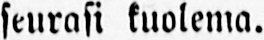seurasi kuolema.
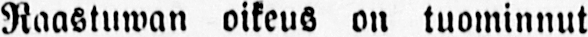Raastuwan oikeus on tuominnut
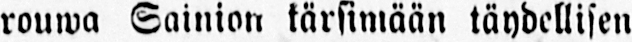rouwa Sainion kärsimään täydellisen
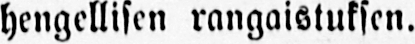hengellisen rangaistuksen.
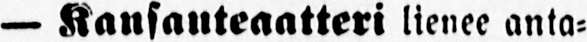— Kansanteaatteri lienee anta-
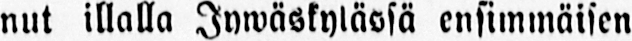nut illalla Jnwäskylässä ensimmäisen
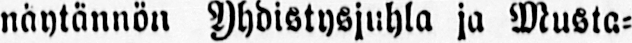näytännön Yhdistysjuhla ja Musta-
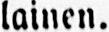lainen.
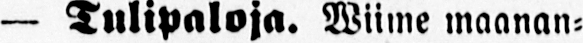— Tulipaloja. Wiime maanan-
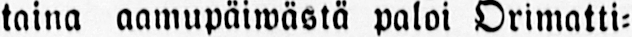taina aamupäiwästä paloi Orimatti-
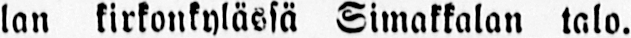lan kirkonkylässä Simakkalan talo.
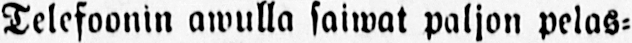Telefoonin awulla saiwat paljon pelas-
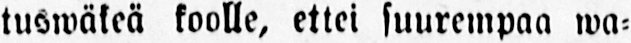tuswäkeä koolle, ettei suurempaa wa-
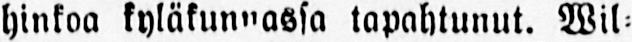hinkoa kyläkunnassa tapahtunut. Wil-
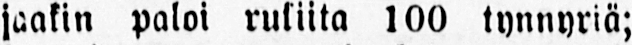jaakin paloi rukiita 100 tynnyriä;
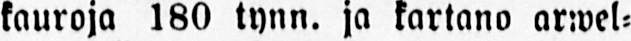kauroja 180 tynn. ja kartano arwel-
